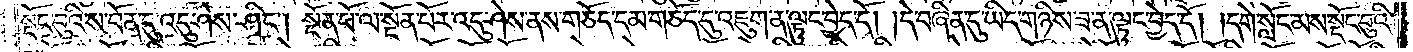སྡོང་བུའི་ས་བོན་དུ་འདུ་ཤེས་ཤིང༌། སྔོན་པོ་ལ་སྔོན་པོར་འདུ་ཤེས་ནས་གཅོད་དམ་གཅོད་དུ་འཇུག་ན་ལྟུང་བྱེད་དོ། །དེ་བཞིན་དུ་ཡིད་གཉིས་ཟ་ན་ལྟུང་བྱེད་དོ། །དགེ་སློང་མས་སྡོང་བུའི་
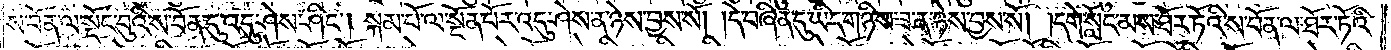ས་བོན་ལ་སྡོང་བུའི་ས་བོན་དུ་འདུ་ཤེས་ཤིང༌། སྐམ་པོ་ལ་སྔོན་པོར་འདུ་ཤེས་ན་ཉེས་བྱས་སོ། །དེ་བཞིན་དུ་ཡིད་གཉིས་ཟ་ན་ཉེས་བྱས་སོ། །དགེ་སློང་མས་ཐོར་ཏོའི་ས་བོན་ལ་ཐོར་ཏོའི་
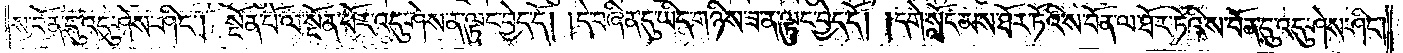ས་བོན་དུ་འདུ་ཤེས་ཤིང༌། སྔོན་པོ་ལ་སྔོན་པོར་འདུ་ཤེས་ན་ལྟུང་བྱེད་དོ། །དེ་བཞིན་དུ་ཡིད་གཉིས་ཟ་ན་ལྟུང་བྱེད་དོ། །དགེ་སློང་མས་ཐོར་ཏོའི་ས་བོན་ལ་ཐོར་ཏོའི་ས་བོན་དུ་འདུ་ཤེས་ཤིང༌།
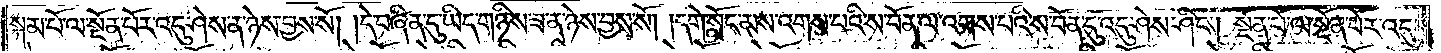སྐམ་པོ་ལ་སྔོན་པོར་འདུ་ཤེས་ན་ཉེས་བྱས་སོ། །དེ་བཞིན་དུ་ཡིད་གཉིས་ཟ་ན་ཉེས་བྱས་སོ། །དགེ་སློང་མས་འགས་པའི་ས་བོན་ལ་འགས་པའི་ས་བོན་དུ་འདུ་ཤེས་ཤིང༌། སྔོན་པོ་ལ་སྔོན་པོར་འདུ་
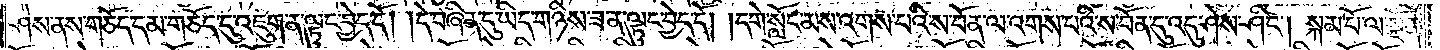ཤེས་ནས་གཅོད་དམ་གཅོད་དུ་འཇུག་ན་ལྟུང་བྱེད་དོ། །དེ་བཞིན་དུ་ཡིད་གཉིས་ཟ་ན་ལྟུང་བྱེད་དོ། །དགེ་སློང་མས་འགས་པའི་ས་བོན་ལ་འགས་པའི་ས་བོན་དུ་འདུ་ཤེས་ཤིང༌། སྐམ་པོ་ལ་སྔོན་
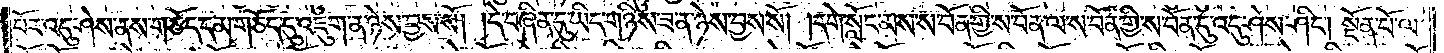པོར་འདུ་ཤེས་ནས་གཅོད་དམ་གཅོད་དུ་འཇུག་ན་ཉེས་བྱས་སོ། །དེ་བཞིན་དུ་ཡིད་གཉིས་ཟ་ན་ཉེས་བྱས་སོ། །དགེ་སློང་མས་ས་བོན་གྱི་ས་བོན་ལ་ས་བོན་གྱི་ས་བོན་དུ་འདུ་ཤེས་ཤིང༌། སྔོན་པོ་ལ་
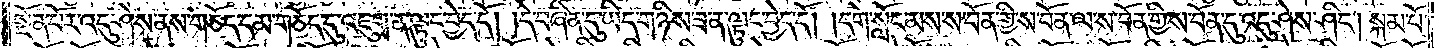སྔོན་པོར་འདུ་ཤེས་ནས་གཅོད་དམ་གཅོད་དུ་འཇུག་ན་ལྟུང་བྱེད་དོ། །དེ་བཞིན་དུ་ཡིད་གཉིས་ཟ་ན་ལྟུང་བྱེད་དོ། །དགེ་སློང་མས་ས་བོན་གྱི་ས་བོན་ལ་ས་བོན་གྱི་ས་བོན་དུ་འདུ་ཤེས་ཤིང༌། སྐམ་པོ་
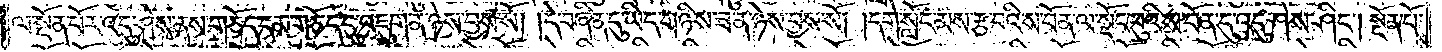ལ་སྔོན་པོར་འདུ་ཤེས་ནས་གཅོད་དམ་གཅོད་དུ་འཇུག་ན་ཉེས་བྱས་སོ། །དེ་བཞིན་དུ་ཡིད་གཉིས་ཟ་ན་ཉེས་བྱས་སོ། །དགེ་སློང་མས་རྩ་བའི་ས་བོན་ལ་སྡོང་བུའི་ས་བོན་དུ་འདུ་ཤེས་ཤིང༌། སྔོན་པོ་
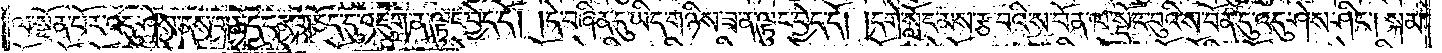ལ་སྔོན་པོར་འདུ་ཤེས་ནས་གཅོད་དམ་གཅོད་དུ་འཇུག་ན་ལྟུང་བྱེད་དོ། །དེ་བཞིན་དུ་ཡིད་གཉིས་ཟ་ན་ལྟུང་བྱེད་དོ། །དགེ་སློང་མས་རྩ་བའི་ས་བོན་ལ་སྡོང་བུའི་ས་བོན་དུ་འདུ་ཤེས་ཤིང༌། སྐམ་
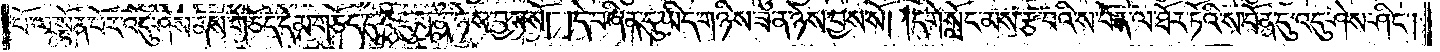པོ་ལ་སྔོན་པོར་འདུ་ཤེས་ནས་གཅོད་དམ་གཅོད་དུ་འཇུག་ན་ཉེས་བྱས་སོ། །དེ་བཞིན་དུ་ཡིད་གཉིས་ཟ་ན་ཉེས་བྱས་སོ། །དགེ་སློང་མས་རྩ་བའི་ས་བོན་ལ་ཐོར་ཏོའི་ས་བོན་དུ་འདུ་ཤེས་ཤིང༌།
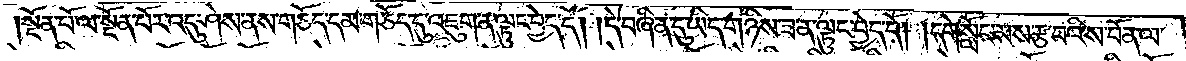།སྔོན་པོ་ལ་སྔོན་པོར་འདུ་ཤེས་ནས་གཅོད་དམ་གཅོད་དུ་འཇུག་ན་ལྟུང་བྱེད་དོ། །དེ་བཞིན་དུ་ཡིད་གཉིས་ཟ་ན་ལྟུང་བྱེད་དོ། །དགེ་སློང་མས་རྩ་བའི་ས་བོན་ལ་
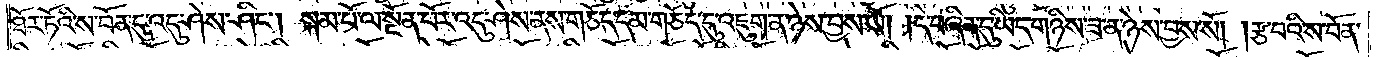ཐོར་ཏོའི་ས་བོན་དུ་འདུ་ཤེས་ཤིང༌། སྐམ་པོ་ལ་སྔོན་པོར་འདུ་ཤེས་ནས་གཅོད་དམ་གཅོད་དུ་འཇུག་ན་ཉེས་བྱས་སོ། །དེ་བཞིན་དུ་ཡིད་གཉིས་ཟ་ན་ཉེས་བྱས་སོ། །རྩ་བའི་ས་བོན་
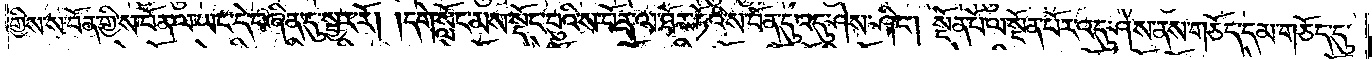གྱིས་ས་བོན་གྱི་ས་བོན་ལ་ཡང་དེ་བཞིན་དུ་སྦྱར་རོ། །དགེ་སློང་མས་སྡོང་བུའི་ས་བོན་ལ་ཐོར་ཏོའི་ས་བོན་དུ་འདུ་ཤེས་ཤིང༌། སྔོན་པོ་ལ་སྔོན་པོར་འདུ་ཤེས་ནས་གཅོད་དམ་གཅོད་དུ་
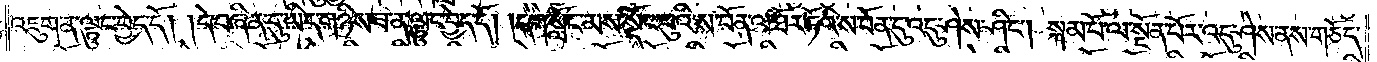འཇུག་ན་ལྟུང་བྱེད་དོ། །དེ་བཞིན་དུ་ཡིད་གཉིས་ཟ་ན་ལྟུང་བྱེད་དོ། །དགེ་སློང་མས་སྡོང་བུའི་ས་བོན་ལ་ཐོར་ཏོའི་ས་བོན་དུ་འདུ་ཤེས་ཤིང༌། སྐམ་པོ་ལ་སྔོན་པོར་འདུ་ཤེས་ནས་གཅོད་
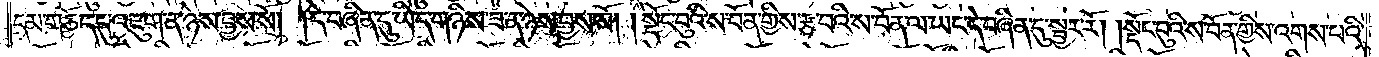དམ་གཅོད་དུ་འཇུག་ན་ཉེས་བྱས་སོ། །དེ་བཞིན་དུ་ཡིད་གཉིས་ཟ་ན་ཉེས་བྱས་སོ། །སྡོང་བུའི་ས་བོན་གྱིས་རྩ་བའི་ས་བོན་ལ་ཡང་དེ་བཞིན་དུ་སྦྱར་རོ། །སྡོང་བུའི་ས་བོན་གྱིས་འགས་པའི་
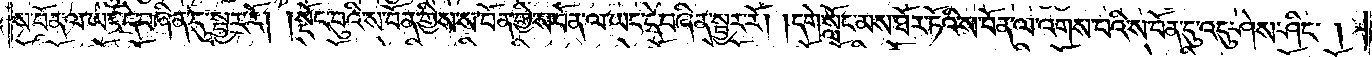ས་བོན་ལ་ཡང་དེ་བཞིན་དུ་སྦྱར་རོ། །སྡོང་བུའི་ས་བོན་གྱིས་ས་བོན་གྱི་ས་བོན་ལ་ཡང་དེ་བཞིན་སྦྱར་རོ། །དགེ་སློང་མས་ཐོར་ཏོའི་ས་བོན་ལ་འགས་པའི་ས་བོན་དུ་འདུ་ཤེས་ཤིང༌།
